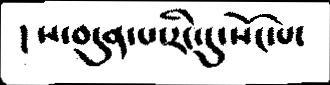།ས་བདུན་པ་རིང་དུ་སོང་པ་
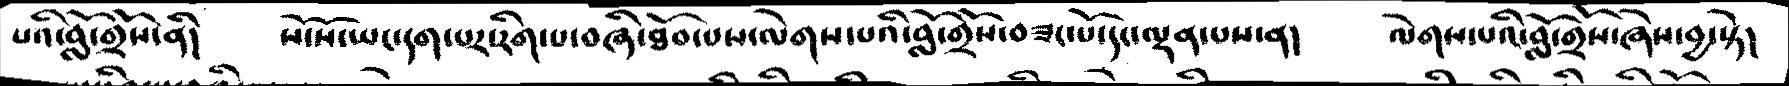པའི་བློ་གྲོས་ནི།    སོ་སོ་ཡང་དག་པར་རིག་པ་བཞི་ཐོབ་པས་ལེགས་པའི་བློ་གྲོས་བཟང་པོ་དང་ལྡན་པས་ན།  ལེགས་པའི་བློ་གྲོས་ཞེས་བྱ་སྟེ།
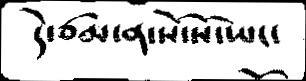དེ་ཙམ་ན་སོ་སོ་ཡང་
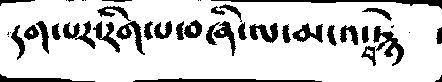དག་པར་རིག་པ་བཞི་ལ་མངའ་བརྙེ
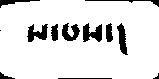ས་པས་།
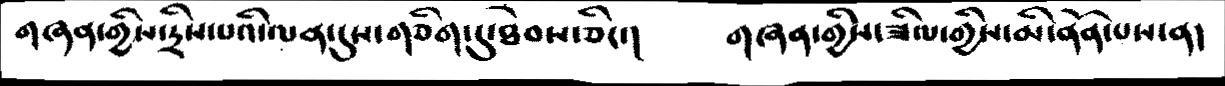གཞན་གྱིས་དྲིས་པའི་ལན་དུས་གཅིག་དུ་ཐེབས་ཅིང་།    གཞན་གྱིས་ཟིལ་གྱིས་མི་ནོན་པས་ན།
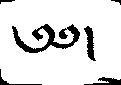༄༅།
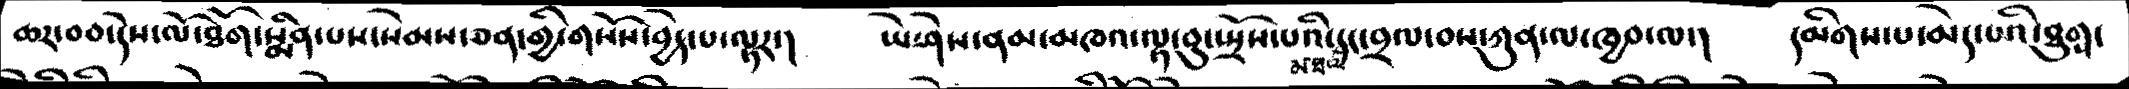ཆར་བབ་དེས་ལོ་ཐོག་སྨིན་པས་སེམས་ཅན་གྱི་གསོས་བྱེད་པ་ལྟར་།   ཡེ་ཤེས་ནམ་མཁའ་ལྟ་བུ་སྤྲོས་པའི་མཐའ་དང་བྲལ་བས་ཀུན་ལ་ཁྱབ་ལ་།   དམིགས་པ་མེད་པའི་ཐུགས་
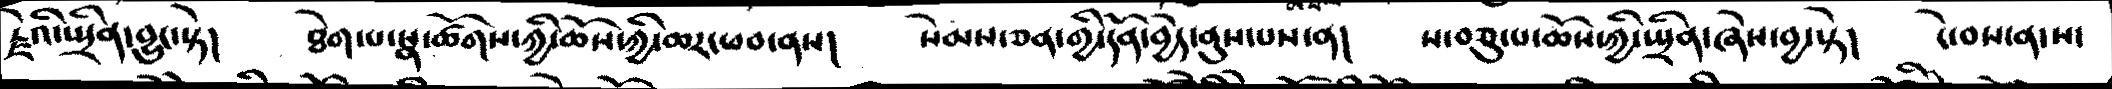རྗེའི་སྤྲིན་བྱུང་སྟེ།   ཐེག་པ་སྣ་ཚོགས་ཀྱི་ཆོས་ཀྱི་ཆར་ཕབ་ནས།    སེམས་ཅན་གྱི་དོན་བྱེད་ནུས་པས་ན།    ས་བཅུ་པ་ཆོས་ཀྱི་སྤྲིན་ཞེས་བྱ་སྟེ།    ངེ་བས་ན་ས་
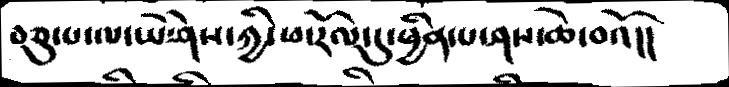བཅུ་པ་ལ་ཡེ་ཤེས་ཀྱི་ཕ་རོལ་དུ་ཕྱིན་པ་ཤས་ཆེ་བའོ།།
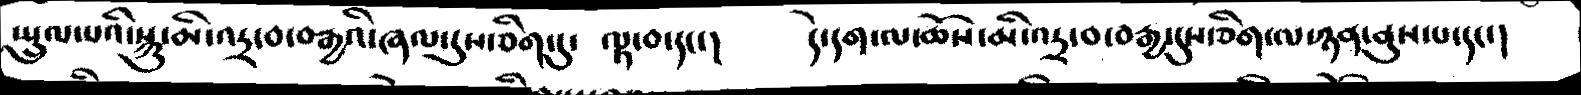སྤྲུལ་པའི་སྐུ་མི་འདྲ་བ་བརྒྱའི་ཞལ་དུས་ཅིག་ ལྟ་བ་དང་།     དེ་དག་ལ་ཆོས་མི་འདྲ་བ་བརྒྱ་དུས་ཅིག་ལ་ཉན་ནུས་པ་དང་།
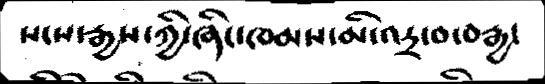སངས་རྒྱས་ཀྱི་ཞིང་ཁམས་མི་འདྲ་བ་བརྒྱ་
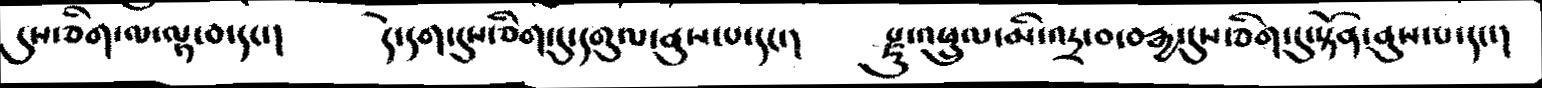དུས་ཅིག་ལ་ལྟ་བ་དང་།    དེ་དག་དུས་ཅིག་དུ་དགུལ་ནུས་པ་དང་།   རྫུ་འཕྲུལ་མི་འདྲ་བ་བརྒྱ་དུས་ཅིག་དུ་སྟོན་ནུས་པ་དང་།
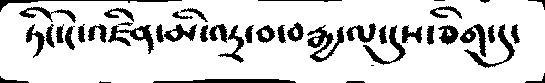ཏིང་ངེ་འཛིན་མི་འདྲ་བ་བརྒྱ་ལ་དུས་ཅིག་དུ་
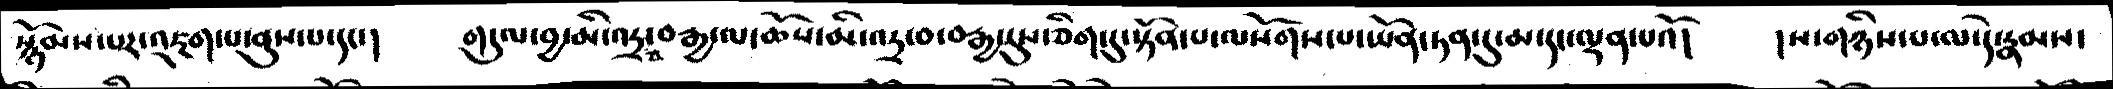སྙོམས་པར་འཇུག་པ་ནུས་པ་དང་།    གདུལ་བྱ་མི་འདྲ་བ་བརྒྱ་ལ་ཆོས་མི་འདྲ་བ་བརྒྱ་དུས་ཅིག་དུ་སྟོན་པ་ལསོགས་པ་ཡོན་ཏན་དུ་མ་དང་ལྡན་པའོ།   །ས་གཉིས་པ་ལ་དེ་རྣམས་
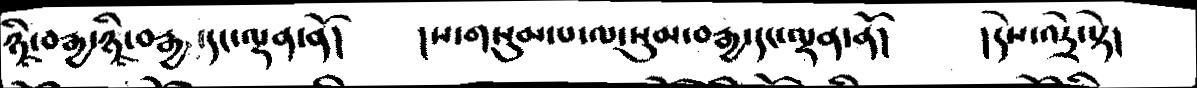ཉིས་བརྒྱ་ཉིས་བརྒྱ་དང་ལྡན་ནོ།    །ས་གསུམ་པ་ལ་སུམ་བརྒྱ་དང་ལྡན་ནོ།    །དེས་འདྲེ་སྟེ་
